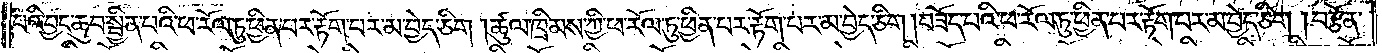པའི་བྱང་ཆུབ་སྦྱིན་པའི་ཕ་རོལ་ཏུ་ཕྱིན་པར་རྟོག་པར་མ་བྱེད་ཅིག །ཚུལ་ཁྲིམས་ཀྱི་ཕ་རོལ་ཏུ་ཕྱིན་པར་རྟོག་པར་མ་བྱེད་ཅིག །བཟོད་པའི་ཕ་རོལ་ཏུ་ཕྱིན་པར་རྟོག་པར་མ་བྱེད་ཅིག །བརྩོན་
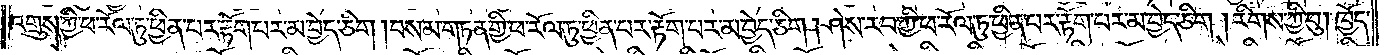འགྲུས་ཀྱི་ཕ་རོལ་ཏུ་ཕྱིན་པར་རྟོག་པར་མ་བྱེད་ཅིག །བསམ་གཏན་གྱི་ཕ་རོལ་ཏུ་ཕྱིན་པར་རྟོག་པར་མ་བྱེད་ཅིག །ཤེས་རབ་ཀྱི་ཕ་རོལ་ཏུ་ཕྱིན་པར་རྟོག་པར་མ་བྱེད་ཅིག །རིགས་ཀྱི་བུ། ཁྱོད་
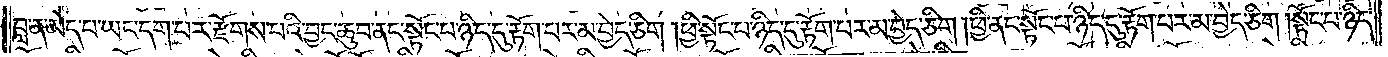བླ་ན་མེད་པ་ཡང་དག་པར་རྫོགས་པའི་བྱང་ཆུབ་ནང་སྟོང་པ་ཉིད་དུ་རྟོག་པར་མ་བྱེད་ཅིག །ཕྱི་སྟོང་པ་ཉིད་དུ་རྟོག་པར་མ་བྱེད་ཅིག །ཕྱི་ནང་སྟོང་པ་ཉིད་དུ་རྟོག་པར་མ་བྱེད་ཅིག །སྟོང་པ་ཉིད་
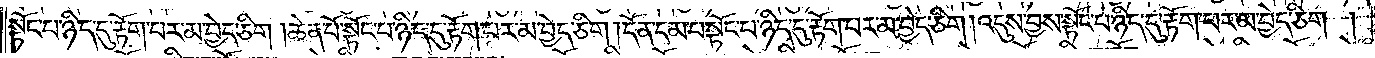སྟོང་པ་ཉིད་དུ་རྟོག་པར་མ་བྱེད་ཅིག །ཆེན་པོ་སྟོང་པ་ཉིད་དུ་རྟོག་པར་མ་བྱེད་ཅིག །དོན་དམ་པ་སྟོང་པ་ཉིད་དུ་རྟོག་པར་མ་བྱེད་ཅིག། འདུས་བྱས་སྟོང་པ་ཉིད་དུ་རྟོག་པར་མ་བྱེད་ཅིག།
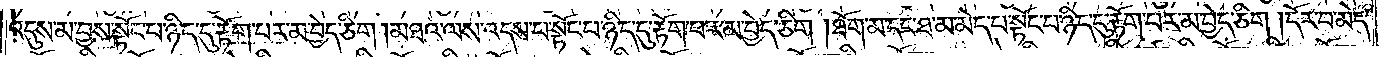འདུས་མ་བྱས་སྟོང་པ་ཉིད་དུ་རྟོག་པར་མ་བྱེད་ཅིག །མཐའ་ལས་འདས་པ་སྟོང་པ་ཉིད་དུ་རྟོག་པར་མ་བྱེད་ཅིག །ཐོག་མ་དང་ཐ་མ་མེད་པ་སྟོང་པ་ཉིད་དུ་རྟོག་པར་མ་བྱེད་ཅིག །དོར་བ་མེད་
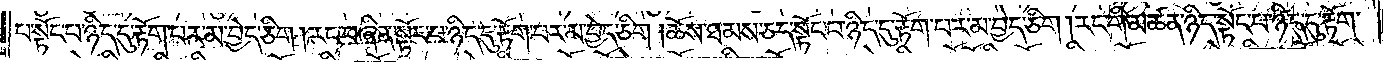པ་སྟོང་པ་ཉིད་དུ་རྟོག་པར་མ་བྱེད་ཅིག །རང་བཞིན་སྟོང་པ་ཉིད་དུ་རྟོག་པར་མ་བྱེད་ཅིག །ཆོས་ཐམས་ཅད་སྟོང་པ་ཉིད་དུ་རྟོག་པར་མ་བྱེད་ཅིག །རང་གི་མཚན་ཉིད་སྟོང་པ་ཉིད་དུ་རྟོག་
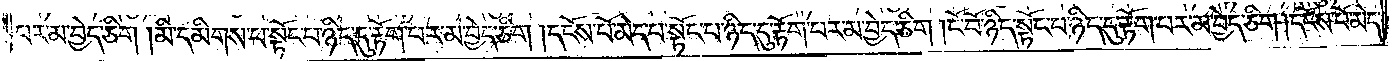པར་མ་བྱེད་ཅིག །མི་དམིགས་པ་སྟོང་པ་ཉིད་དུ་རྟོག་པར་མ་བྱེད་ཅིག །དངོས་པོ་མེད་པ་སྟོང་པ་ཉིད་དུ་རྟོག་པར་མ་བྱེད་ཅིག །ངོ་བོ་ཉིད་སྟོང་པ་ཉིད་དུ་རྟོག་པར་མ་བྱེད་ཅིག །དངོས་པོ་མེད་
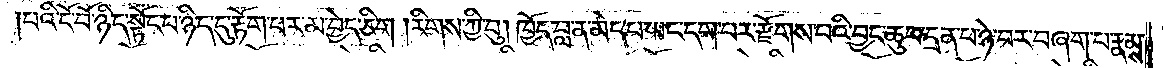པའི་ངོ་བོ་ཉིད་སྟོང་པ་ཉིད་དུ་རྟོག་པར་མ་བྱེད་ཅིག །རིགས་ཀྱི་བུ། ཁྱོད་བླ་ན་མེད་པ་ཡང་དག་པར་རྫོགས་པའི་བྱང་ཆུབ་དྲན་པ་ཉེ་བར་བཞག་པ་རྣམས་
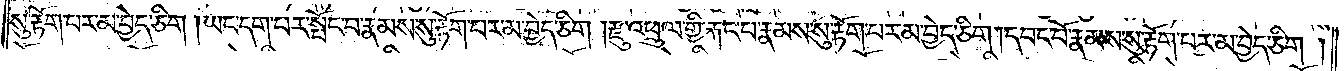སུ་རྟོག་པར་མ་བྱེད་ཅིག །ཡང་དག་པར་སྤོང་བ་རྣམས་སུ་རྟོག་པར་མ་བྱེད་ཅིག །རྫུ་འཕྲུལ་གྱི་རྐང་པ་རྣམས་སུ་རྟོག་པར་མ་བྱེད་ཅིག །དབང་པོ་རྣམས་སུ་རྟོག་པར་མ་བྱེད་ཅིག།
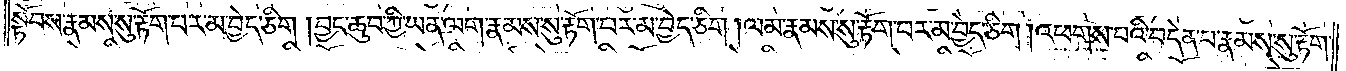སྟོབས་རྣམས་སུ་རྟོག་པར་མ་བྱེད་ཅིག །བྱང་ཆུབ་ཀྱི་ཡན་ལག་རྣམས་སུ་རྟོག་པར་མ་བྱེད་ཅིག །ལམ་རྣམས་སུ་རྟོག་པར་མ་བྱེད་ཅིག །འཕགས་པའི་བདེན་པ་རྣམས་སུ་རྟོག་
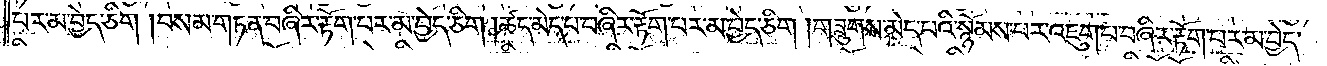པར་མ་བྱེད་ཅིག །བསམ་གཏན་བཞིར་རྟོག་པར་མ་བྱེད་ཅིག །ཚད་མེད་པ་བཞིར་རྟོག་པར་མ་བྱེད་ཅིག །གཟུགས་མེད་པའི་སྙོམས་པར་འཇུག་པ་བཞིར་རྟོག་པར་མ་བྱེད་
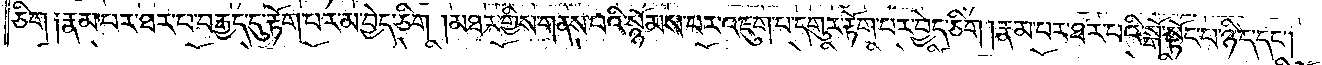ཅིག །རྣམ་པར་ཐར་པ་བརྒྱད་དུ་རྟོག་པར་མ་བྱེད་ཅིག །མཐར་གྱིས་གནས་པའི་སྙོམས་པར་འཇུག་པ་དགུར་རྟོག་པར་མ་བྱེད་ཅིག །རྣམ་པར་ཐར་པའི་སྒོ་སྟོང་པ་ཉིད་དང༌།
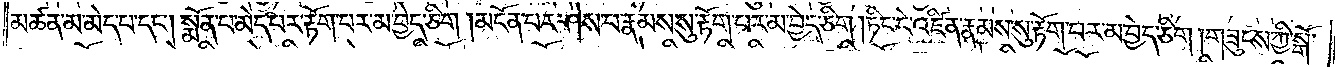མཚན་མ་མེད་པ་དང༌། སྨོན་པ་མེད་པར་རྟོག་པར་མ་བྱེད་ཅིག །མངོན་པར་ཤེས་པ་རྣམས་སུ་རྟོག་པར་མ་བྱེད་ཅིག །ཏིང་ངེ་འཛིན་རྣམས་སུ་རྟོག་པར་མ་བྱེད་ཅིག །གཟུངས་ཀྱི་སྒོ་
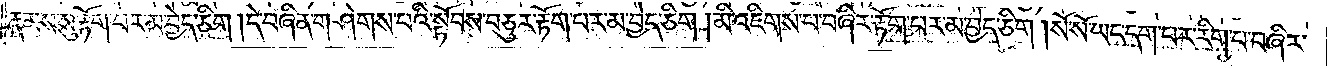རྣམས་སུ་རྟོག་པར་མ་བྱེད་ཅིག །དེ་བཞིན་གཤེགས་པའི་སྟོབས་བཅུར་རྟོག་པར་མ་བྱེད་ཅིག །མི་འཇིགས་པ་བཞིར་རྟོག་པར་མ་བྱེད་ཅིག །སོ་སོ་ཡང་དག་པར་རིག་པ་བཞིར་
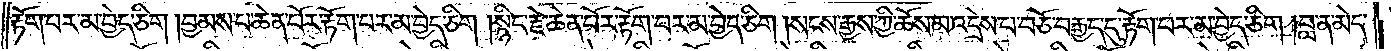རྟོག་པར་མ་བྱེད་ཅིག །བྱམས་པ་ཆེན་པོར་རྟོག་པར་མ་བྱེད་ཅིག །སྙིང་རྗེ་ཆེན་པོར་རྟོག་པར་མ་བྱེད་ཅིག །སངས་རྒྱས་ཀྱི་ཆོས་མ་འདྲེས་པ་བཅོ་བརྒྱད་དུ་རྟོག་པར་མ་བྱེད་ཅིག །བླ་ན་མེད་
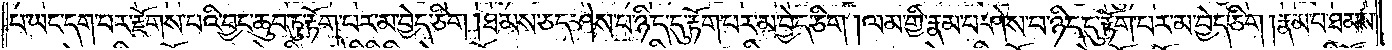པ་ཡང་དག་པར་རྫོགས་པའི་བྱང་ཆུབ་ཏུ་རྟོག་པར་མ་བྱེད་ཅིག །ཐམས་ཅད་ཤེས་པ་ཉིད་དུ་རྟོག་པར་མ་བྱེད་ཅིག །ལམ་གྱི་རྣམ་པ་ཤེས་པ་ཉིད་དུ་རྟོག་པར་མ་བྱེད་ཅིག །རྣམ་པ་ཐམས་
